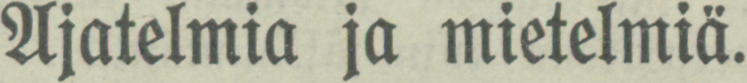Ajatelmia ja mietelmiä.
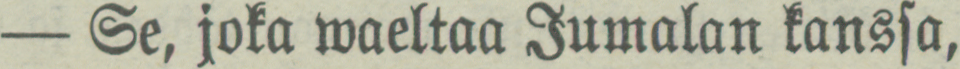— Se, joka waeltaa Jumalan kanssa,
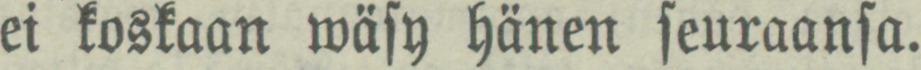ei koskaan wäsy hänen seuraansa.
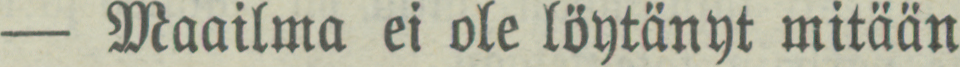— Maailma ei ole löytänyt mitään
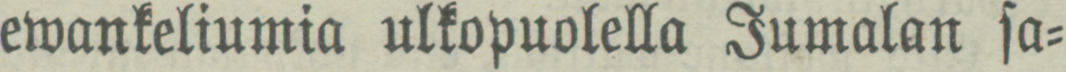ewankeliumia ulkopuolella Jumalan sa-
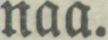naa.
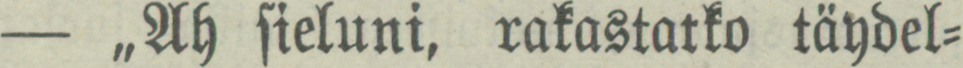— „Ah sieluni, rakastatko täydel-
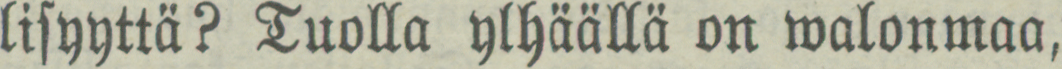lisyyttä? Tuolla ylhäällä on walonmaa,
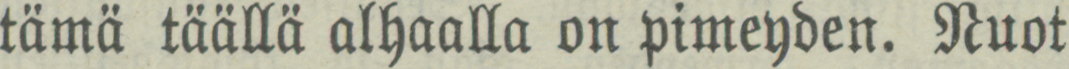tämä täällä alhaalla on pimeyden. Nuot
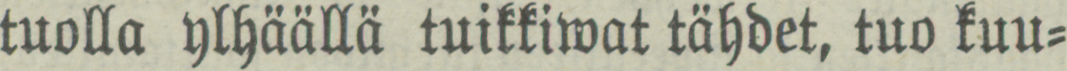tuolla ylhäällä tuikkiwat tähdet, tuo kuu-
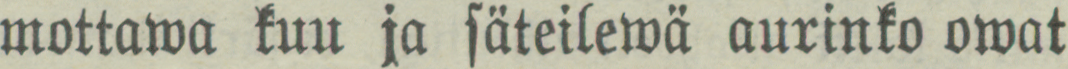mottawa kuu ja säteilewä aurinko owat
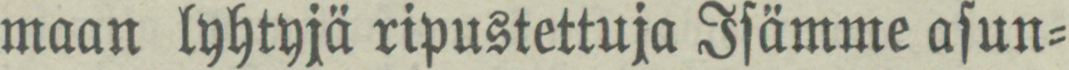maan lyhtyjä ripustettuja Isämme asun-
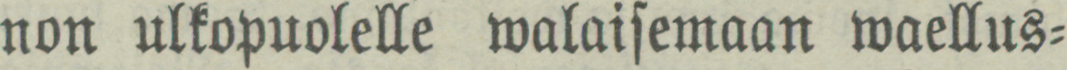non ulkopuolelle walaisemaan waellus-
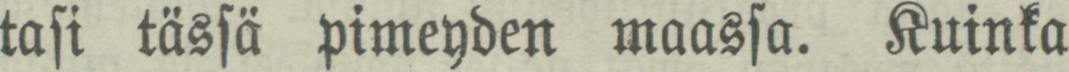tasi tässä pimeyden maassa. Kuinka
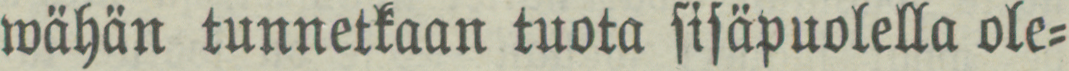wähän tunnetkaan tuota sisäpuolella ole-
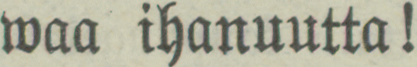waa ihanuutta!
